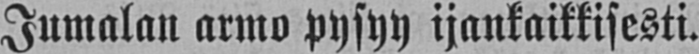Jumalan armo pysyy ijankaikkisesti.
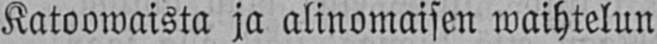Katoowaista ja alinomaisen waihtelun
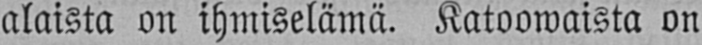alaista on ihmiselämä. Katoowaista on
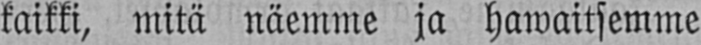kaikki, mitä näemme ja hawaitsemme
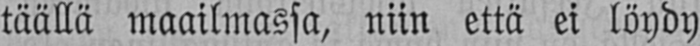täällä maailmassa, niin että ei löydy
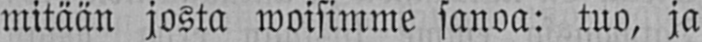mitään josta woisimme sanoa: tuo, ja
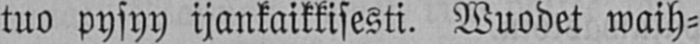tuo pysyy ijankaikkisesti. Wuodet waih-
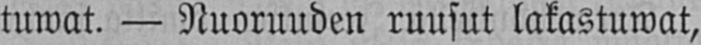tuwat. — Nuoruuden ruusut lakastuwat,
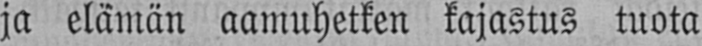ja elämän aamuhetken kajastus tuota
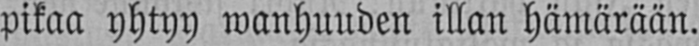pikaa yhtyy wanhuuden illan hämärään.
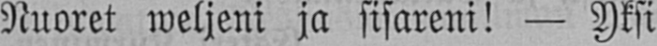Nuoret weljeni ja sisareni! — Yksi
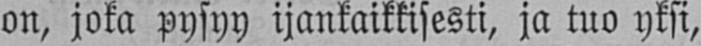on, joka pysyy ijankaikkisesti, ja tuo yksi,
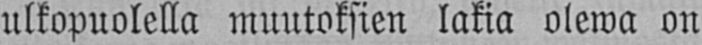ulkopuolella muutoksien lakia olewa on
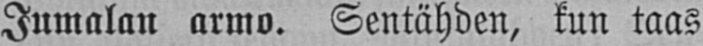Jumalan armo. Sentähden, kun taas
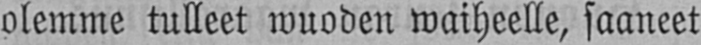olemme tulleet wuoden waiheelle, saaneet
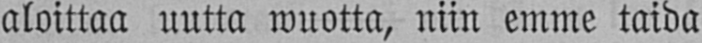aloittaa uutta wuotta, niin emme taida
